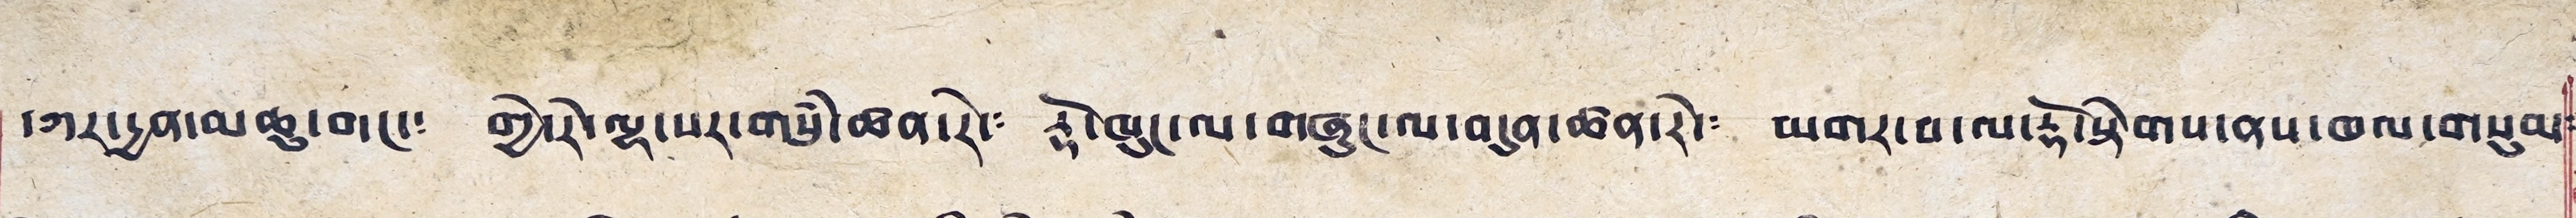དཀར་དྱན་མཆུ་གང་༴ གྱེ་རེ་ལྷ་སར་གསུཾ་ཚན་རེ་༴ རྡོ་ཁུང་ལ་གཞུང་ལ་བདུན་ཚན་རེ་༴ མགར་བ་ལ་རྡོ་སྟེགས་ནས་ཁལ་གསུམ༴
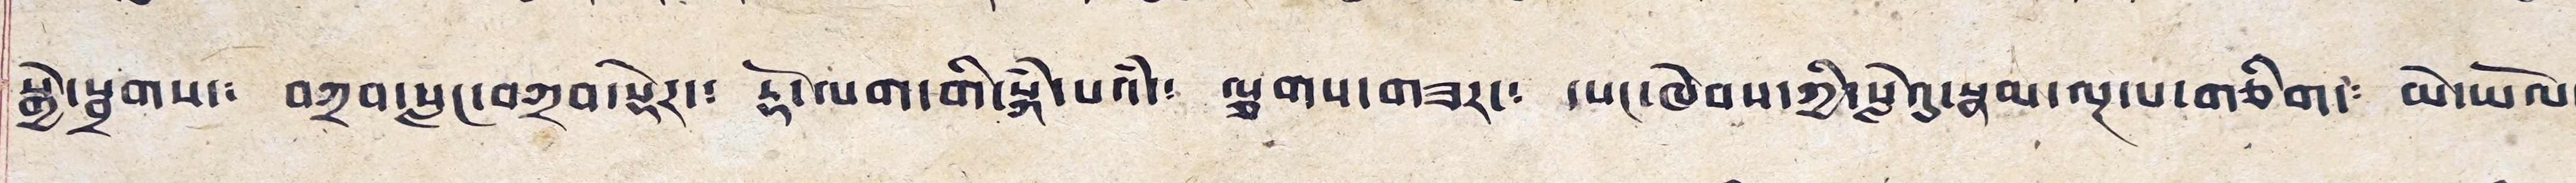སྒྱེ་སྦགས་༴ བཀྲབ་སླང་བཀྲབ་སྡེར་༴ རྡོ་ལག་གི་སྐཾ་པའཾ་༴ ལྕགས་གཟར་༴ དཔང་ཁེབས་ཀྱི་སླེ་འུ་རྣམ་ལྔ་པ་གཅིག་༴ མེ་ཡོལ་
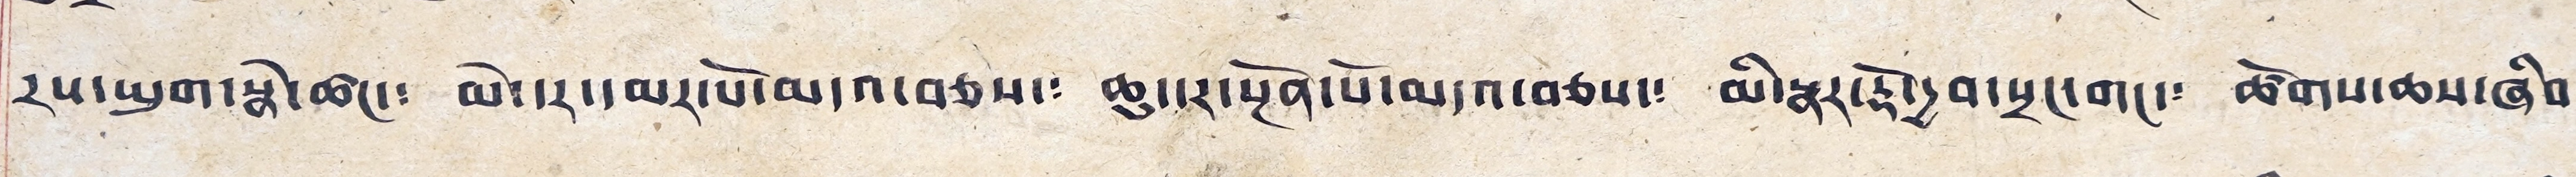རས་ཡུག་སྣེ་ཚང་༴ མེ་དར་དམར་པོ་མདའ་བཅས་༴ ཆུ་དར་སྔོན་པོ་མདའ་བཅས་༴ མི་སྣར་རྡོ་དྱབ་སྲང་གང་༴ ཚོགས་ཆས་ཞིབ་
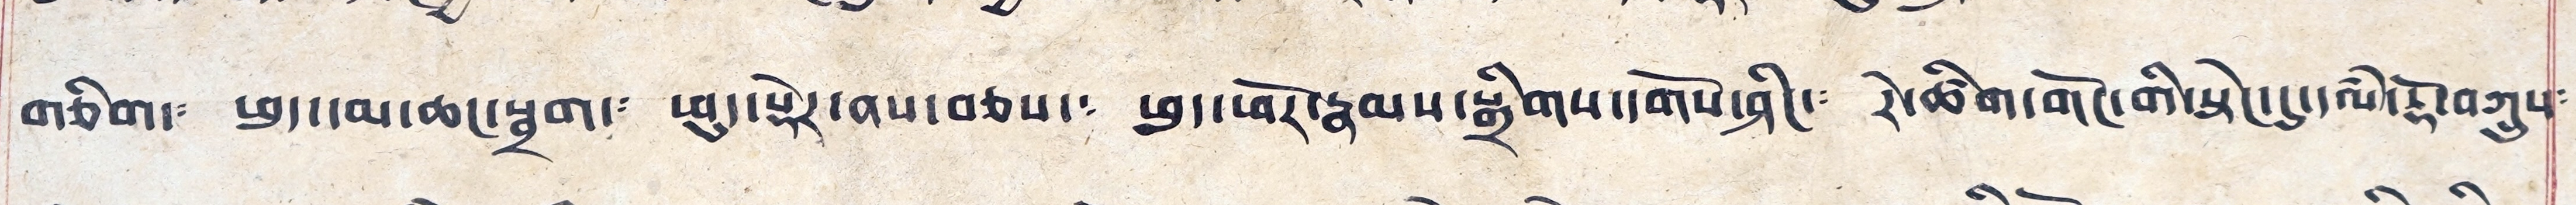གཅིག་༴ ཕུད་དམ་ཆང་སྦྲག་༴ ཕུ་སྡེར་ནས་བཅས་༴ ཕུད་ཕོར་རྣམས་སྒྲིགས་དགོས་ཤིང་༴ རེ་ཚིག་གོང་གི་སྟེང་དུ་དལཾ་རྡོ་བཀྲུས༴
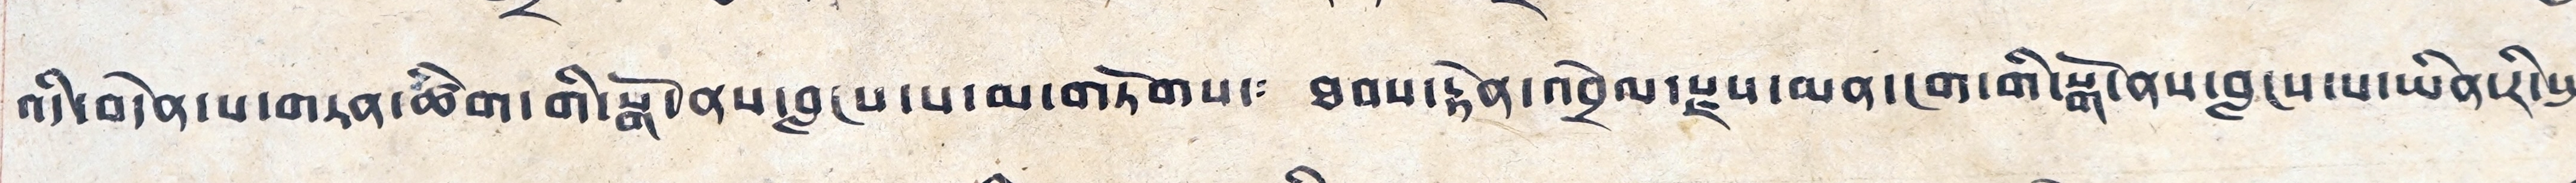འདི་བདེན་པ་གཏན་ཚིག་གི་སྒོ་ནས་བླངས་པ་མ་གཏོགས་༴ ཐབས་རྟེན་འབྲེལ་རྫས་མན་ངག་གི་སྒོ་ནས་བླངས་པ་ཡིན་རི་སྤར༴
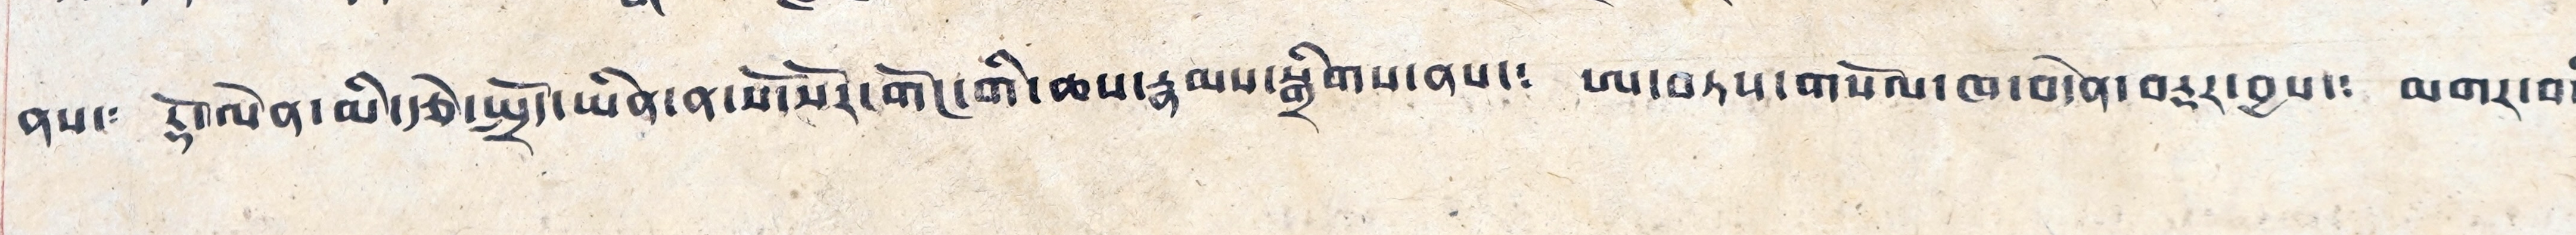ནས་༴ རྡོ་ལེན་མི་རྩེ་སྤྲོད་ཡིན་ན་སོ་སོར་གོང་གི་ཆས་རྣམས་སྒྲིགས་ནས་༴ ཨ་བཏས་གསོལ་ཁ་བདེན་བརྡར་བྱས་༴ མགར་བའི༴
